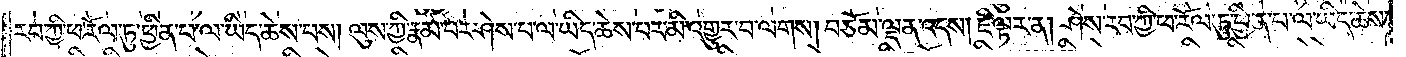རབ་ཀྱི་ཕ་རོལ་ཏུ་ཕྱིན་པ་ལ་ཡིད་ཆེས་པས། ལུས་ཀྱི་རྣམ་པར་ཤེས་པ་ལ་ཡིད་ཆེས་པར་མི་འགྱུར་བ་ལགས། བཅོམ་ལྡན་འདས། ཇི་ལྟར་ན། ཤེས་རབ་ཀྱི་ཕ་རོལ་ཏུ་ཕྱིན་པ་ལ་ཡིད་ཆེས་
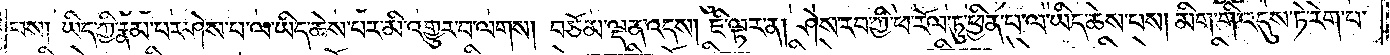པས། ཡིད་ཀྱི་རྣམ་པར་ཤེས་པ་ལ་ཡིད་ཆེས་པར་མི་འགྱུར་བ་ལགས། བཅོམ་ལྡན་འདས། ཇི་ལྟར་ན། ཤེས་རབ་ཀྱི་ཕ་རོལ་ཏུ་ཕྱིན་པ་ལ་ཡིད་ཆེས་པས། མིག་གི་འདུས་ཏེ་རེག་པ་
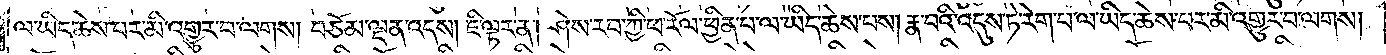ལ་ཡིད་ཆེས་པར་མི་འགྱུར་བ་ལགས། བཅོམ་ལྡན་འདས། ཇི་ལྟར་ན། ཤེས་རབ་ཀྱི་ཕ་རོལ་ཏུ་ཕྱིན་པ་ལ་ཡིད་ཆེས་པས། རྣ་བའི་འདུས་ཏེ་རེག་པ་ལ་ཡིད་ཆེས་པར་མི་འགྱུར་བ་ལགས།
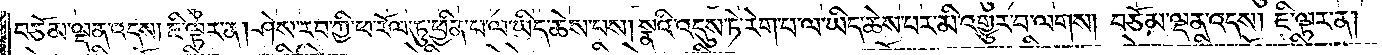བཅོམ་ལྡན་འདས། ཇི་ལྟར་ན། ཤེས་རབ་ཀྱི་ཕ་རོལ་ཏུ་ཕྱིན་པ་ལ་ཡིད་ཆེས་པས། སྣའི་འདུས་ཏེ་རེག་པ་ལ་ཡིད་ཆེས་པར་མི་འགྱུར་བ་ལགས། བཅོམ་ལྡན་འདས། ཇི་ལྟར་ན།
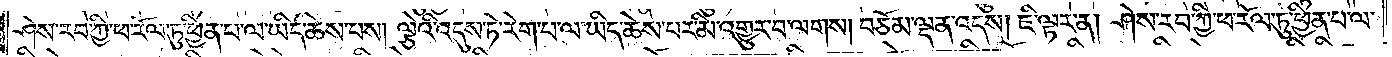ཤེས་རབ་ཀྱི་ཕ་རོལ་ཏུ་ཕྱིན་པ་ལ་ཡིད་ཆེས་པས། ལྕེའི་འདུས་ཏེ་རེག་པ་ལ་ཡིད་ཆེས་པར་མི་འགྱུར་བ་ལགས། བཅོམ་ལྡན་འདས། ཇི་ལྟར་ན། ཤེས་རབ་ཀྱི་ཕ་རོལ་ཏུ་ཕྱིན་པ་ལ་
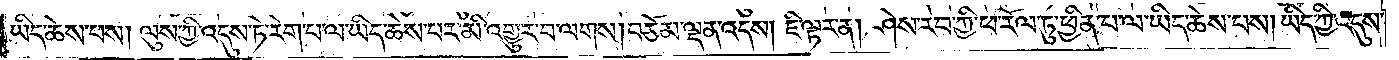ཡིད་ཆེས་པས། ལུས་ཀྱི་འདུས་ཏེ་རེག་པ་ལ་ཡིད་ཆེས་པར་མི་འགྱུར་བ་ལགས། བཅོམ་ལྡན་འདས། ཇི་ལྟར་ན། ཤེས་རབ་ཀྱི་ཕ་རོལ་ཏུ་ཕྱིན་པ་ལ་ཡིད་ཆེས་པས། ཡིད་ཀྱི་འདུས་
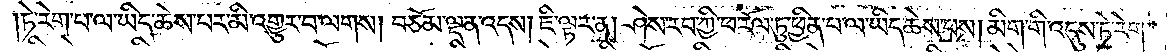ཏེ་རེག་པ་ལ་ཡིད་ཆེས་པར་མི་འགྱུར་བ་ལགས། བཅོམ་ལྡན་འདས། ཇི་ལྟར་ན། ཤེས་རབ་ཀྱི་ཕ་རོལ་ཏུ་ཕྱིན་པ་ལ་ཡིད་ཆེས་པས། མིག་གི་འདུས་ཏེ་རེག་
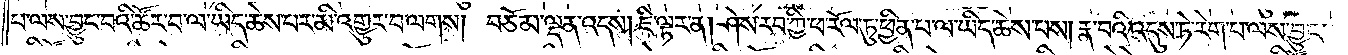པ་ལས་བྱུང་བའི་ཚོར་བ་ལ་ཡིད་ཆེས་པར་མི་འགྱུར་བ་ལགས། བཅོམ་ལྡན་འདས། ཇི་ལྟར་ན། ཤེས་རབ་ཀྱི་ཕ་རོལ་ཏུ་ཕྱིན་པ་ལ་ཡིད་ཆེས་པས། རྣ་བའི་འདུས་ཏེ་རེག་པ་ལས་བྱུང་
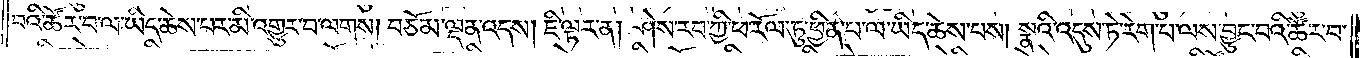བའི་ཚོར་བ་ལ་ཡིད་ཆེས་པར་མི་འགྱུར་བ་ལགས། བཅོམ་ལྡན་འདས། ཇི་ལྟར་ན། ཤེས་རབ་ཀྱི་ཕ་རོལ་ཏུ་ཕྱིན་པ་ལ་ཡིད་ཆེས་པས། སྣའི་འདུས་ཏེ་རེག་པ་ལས་བྱུང་བའི་ཚོར་བ་
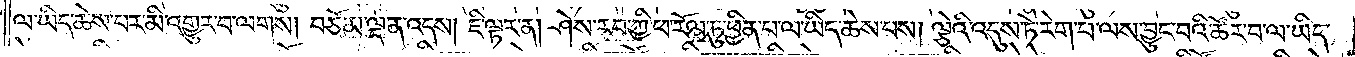ལ་ཡིད་ཆེས་པར་མི་འགྱུར་བ་ལགས། བཅོམ་ལྡན་འདས། ཇི་ལྟར་ན། ཤེས་རབ་ཀྱི་ཕ་རོལ་ཏུ་ཕྱིན་པ་ལ་ཡིད་ཆེས་པས། ལྕེའི་འདུས་ཏེ་རེག་པ་ལས་བྱུང་བའི་ཚོར་བ་ལ་ཡིད་
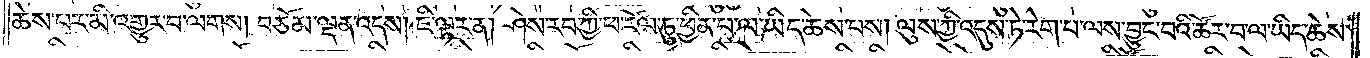ཆེས་པར་མི་འགྱུར་བ་ལགས། བཅོམ་ལྡན་འདས། ཇི་ལྟར་ན། ཤེས་རབ་ཀྱི་ཕ་རོལ་ཏུ་ཕྱིན་པ་ལ་ཡིད་ཆེས་པས། ལུས་ཀྱི་འདུས་ཏེ་རེག་པ་ལས་བྱུང་བའི་ཚོར་བ་ལ་ཡིད་ཆེས་
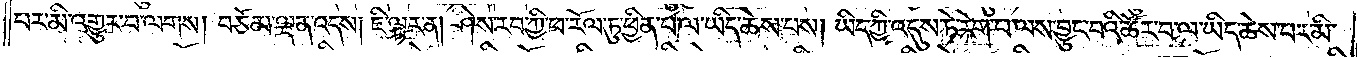པར་མི་འགྱུར་བ་ལགས། བཅོམ་ལྡན་འདས། ཇི་ལྟར་ན། ཤེས་རབ་ཀྱི་ཕ་རོལ་ཏུ་ཕྱིན་པ་ལ་ཡིད་ཆེས་པས། ཡིད་ཀྱི་འདུས་ཏེ་རེག་པ་ལས་བྱུང་བའི་ཚོར་བ་ལ་ཡིད་ཆེས་པར་མི་
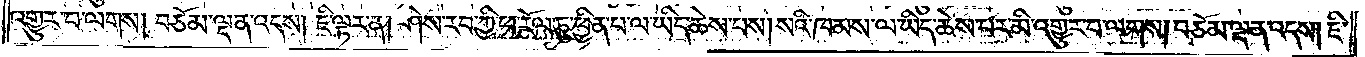འགྱུར་བ་ལགས། བཅོམ་ལྡན་འདས། ཇི་ལྟར་ན། ཤེས་རབ་ཀྱི་ཕ་རོལ་ཏུ་ཕྱིན་པ་ལ་ཡིད་ཆེས་པས། སའི་ཁམས་ལ་ཡིད་ཆེས་པར་མི་འགྱུར་བ་ལགས། བཅོམ་ལྡན་འདས། ཇི་
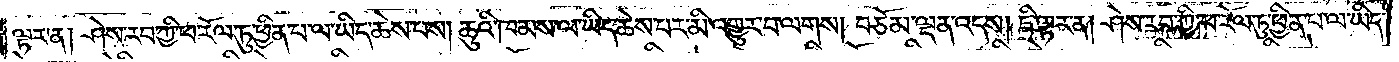ལྟར་ན། ཤེས་རབ་ཀྱི་ཕ་རོལ་ཏུ་ཕྱིན་པ་ལ་ཡིད་ཆེས་པས། ཆུའི་ཁམས་ལ་ཡིད་ཆེས་པར་མི་འགྱུར་བ་ལགས། བཅོམ་ལྡན་འདས། ཇི་ལྟར་ན། ཤེས་རབ་ཀྱི་ཕ་རོལ་ཏུ་ཕྱིན་པ་ལ་ཡིད་
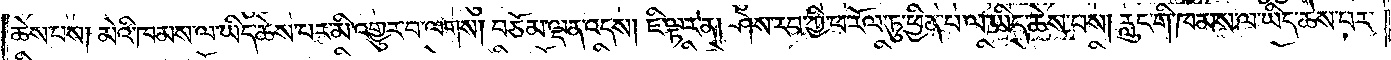ཆེས་པས། མེའི་ཁམས་ལ་ཡིད་ཆེས་པར་མི་འགྱུར་བ་ལགས། བཅོམ་ལྡན་འདས། ཇི་ལྟར་ན། ཤེས་རབ་ཀྱི་ཕ་རོལ་ཏུ་ཕྱིན་པ་ལ་ཡིད་ཆེས་པས། རླུང་གི་ཁམས་ལ་ཡིད་ཆེས་པར་
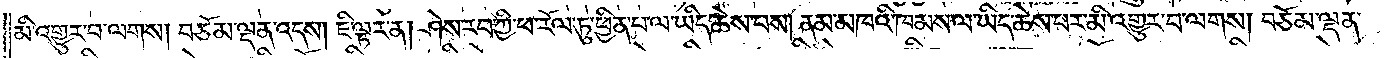མི་འགྱུར་བ་ལགས། བཅོམ་ལྡན་འདས། ཇི་ལྟར་ན། ཤེས་རབ་ཀྱི་ཕ་རོལ་ཏུ་ཕྱིན་པ་ལ་ཡིད་ཆེས་པས། ནམ་མཁའི་ཁམས་ལ་ཡིད་ཆེས་པར་མི་འགྱུར་བ་ལགས། བཅོམ་ལྡན་
